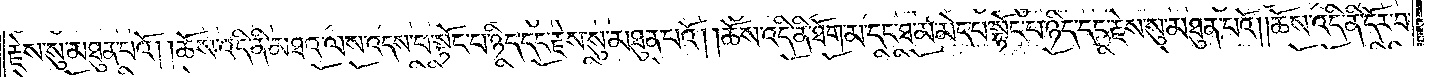རྗེས་སུ་མཐུན་པའོ། །ཆོས་འདི་ནི་མཐའ་ལས་འདས་པ་སྟོང་པ་ཉིད་དང་རྗེས་སུ་མཐུན་པའོ། །ཆོས་འདི་ནི་ཐོག་མ་དང་ཐ་མ་མེད་པ་སྟོང་པ་ཉིད་དང་རྗེས་སུ་མཐུན་པའོ། །ཆོས་འདི་ནི་དོར་བ་
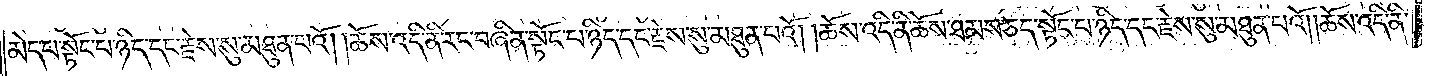མེད་པ་སྟོང་པ་ཉིད་དང་རྗེས་སུ་མཐུན་པའོ། །ཆོས་འདི་ནི་རང་བཞིན་སྟོང་པ་ཉིད་དང་རྗེས་སུ་མཐུན་པའོ། །ཆོས་འདི་ནི་ཆོས་ཐམས་ཅད་སྟོང་པ་ཉིད་དང་རྗེས་སུ་མཐུན་པའོ། །ཆོས་འདི་ནི་
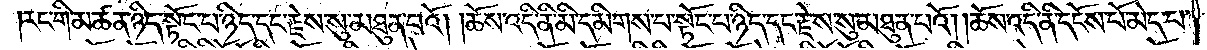རང་གི་མཚན་ཉིད་སྟོང་པ་ཉིད་དང་རྗེས་སུ་མཐུན་པའོ། །ཆོས་འདི་ནི་མི་དམིགས་པ་སྟོང་པ་ཉིད་དང་རྗེས་སུ་མཐུན་པའོ། །ཆོས་འདི་ནི་དངོས་པོ་མེད་པ་
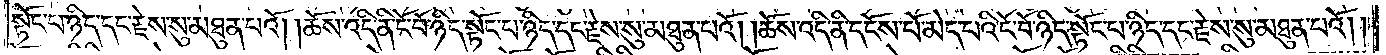སྟོང་པ་ཉིད་དང་རྗེས་སུ་མཐུན་པའོ། །ཆོས་འདི་ནི་ངོ་བོ་ཉིད་སྟོང་པ་ཉིད་དང་རྗེས་སུ་མཐུན་པའོ། །ཆོས་འདི་ནི་དངོས་པོ་མེད་པའི་ངོ་བོ་ཉིད་སྟོང་པ་ཉིད་དང་རྗེས་སུ་མཐུན་པའོ། །
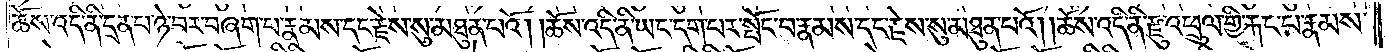ཆོས་འདི་ནི་དྲན་པ་ཉེ་བར་བཞག་པ་རྣམས་དང་རྗེས་སུ་མཐུན་པའོ། །ཆོས་འདི་ནི་ཡང་དག་པར་སྤོང་བ་རྣམས་དང་རྗེས་སུ་མཐུན་པའོ། །ཆོས་འདི་ནི་རྫུ་འཕྲུལ་གྱིས་རྐང་པ་རྣམས་
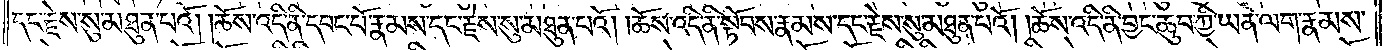དང་རྗེས་སུ་མཐུན་པའོ། །ཆོས་འདི་ནི་དབང་པོ་རྣམས་དང་རྗེས་སུ་མཐུན་པའོ། །ཆོས་འདི་ནི་སྟོབས་རྣམས་དང་རྗེས་སུ་མཐུན་པའོ། །ཆོས་འདི་ནི་བྱང་ཆུབ་ཀྱི་ཡན་ལག་རྣམས་
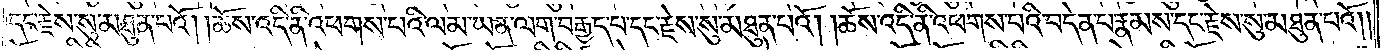དང་རྗེས་སུ་མཐུན་པའོ། །ཆོས་འདི་ནི་འཕགས་པའི་ལམ་ཡན་ལག་བརྒྱད་པ་དང་རྗེས་སུ་མཐུན་པའོ། །ཆོས་འདི་ནི་འཕགས་པའི་བདེན་པ་རྣམས་དང་རྗེས་སུ་མཐུན་པའོ༎
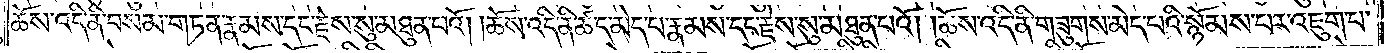ཆོས་འདི་ནི་བསམ་གཏན་རྣམས་དང་རྗེས་སུ་མཐུན་པའོ། །ཆོས་འདི་ནི་ཚད་མེད་པ་རྣམས་དང་རྗེས་སུ་མཐུན་པའོ། །ཆོས་འདི་ནི་གཟུགས་མེད་པའི་སྙོམས་པར་འཇུག་པ་
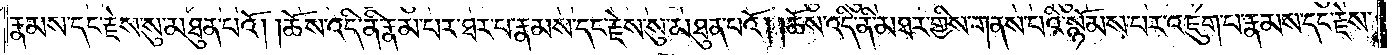རྣམས་དང་རྗེས་སུ་མཐུན་པའོ། །ཆོས་འདི་ནི་རྣམ་པར་ཐར་པ་རྣམས་དང་རྗེས་སུ་མཐུན་པའོ། །ཆོས་འདི་ནི་མཐར་གྱིས་གནས་པའི་སྙོམས་པར་འཇུག་པ་རྣམས་དང་རྗེས་
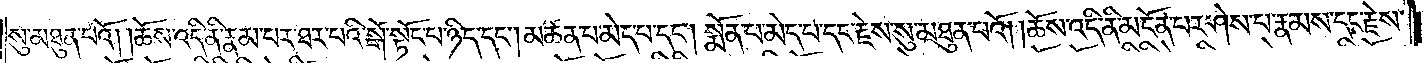སུ་མཐུན་པའོ། །ཆོས་འདི་ནི་རྣམ་པར་ཐར་པའི་སྒོ་སྟོང་པ་ཉིད་དང༌། མཚན་མ་མེད་པ་དང་སྨོན་པ་མེད་པ་དང་རྗེས་སུ་མཐུན་པའོ། །ཆོས་འདི་ནི་མངོན་པར་ཤེས་པ་རྣམས་དང་རྗེས་
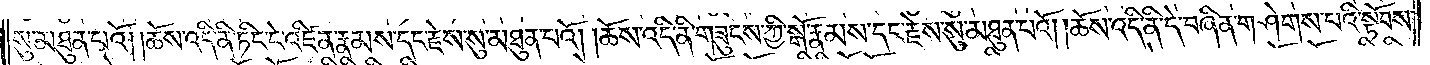སུ་མཐུན་པའོ། །ཆོས་འདི་ནི་ཏིང་ངེ་འཛིན་རྣམས་དང་རྗེས་སུ་མཐུན་པའོ། །ཆོས་འདི་ནི་གཟུངས་ཀྱི་སྒོ་རྣམས་དང་རྗེས་སུ་མཐུན་པའོ། །ཆོས་འདི་ནི་དེ་བཞིན་གཤེགས་པའི་སྟོབས་
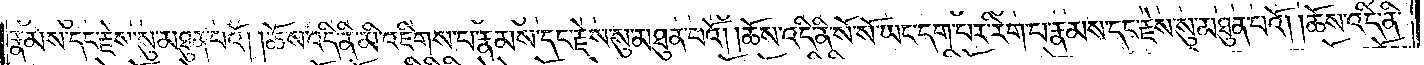རྣམས་དང་རྗེས་སུ་མཐུན་པའོ། །ཆོས་འདི་ནི་མི་འཇིགས་པ་རྣམས་དང་རྗེས་སུ་མཐུན་པའོ། །ཆོས་འདི་ནི་སོ་སོ་ཡང་དག་པར་རིག་པ་རྣམས་དང་རྗེས་སུ་མཐུན་པའོ། །ཆོས་འདི་ནི་
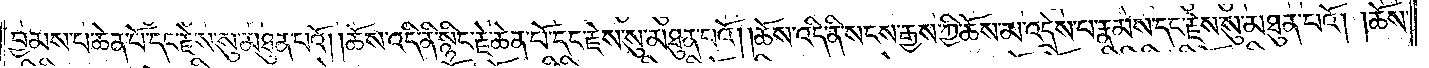བྱམས་པ་ཆེན་པོ་དང་རྗེས་སུ་མཐུན་པའོ། །ཆོས་འདི་ནི་སྙིང་རྗེ་ཆེན་པོ་དང་རྗེས་སུ་མཐུན་པའོ། །ཆོས་འདི་ནི་སངས་རྒྱས་ཀྱི་ཆོས་མ་འདྲེས་པ་རྣམས་དང་རྗེས་སུ་མཐུན་པའོ། །ཆོས་
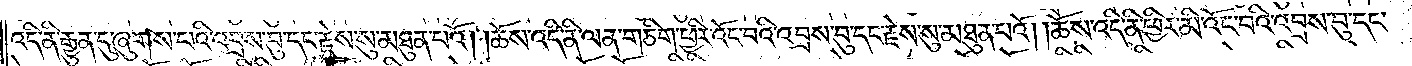འདི་ནི་རྒྱུན་དུ་ཞུགས་པའི་འབྲས་བུ་དང་རྗེས་སུ་མཐུན་པའོ། །ཆོས་འདི་ནི་ལན་གཅིག་ཕྱིར་འོང་བའི་འབྲས་བུ་དང་རྗེས་སུ་མཐུན་པའོ། །ཆོས་འདི་ནི་ཕྱིར་མི་འོང་བའི་འབྲས་བུ་དང་
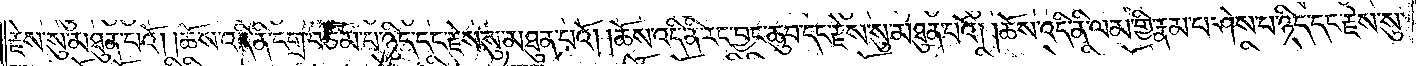རྗེས་སུ་མཐུན་པའོ། །ཆོས་འདི་ནི་དགྲ་བཅོམ་པ་ཉིད་དང་རྗེས་སུ་མཐུན་པའོ། །ཆོས་འདི་ནི་རང་བྱང་ཆུབ་དང་རྗེས་སུ་མཐུན་པའོ། །ཆོས་འདི་ནི་ལམ་གྱི་རྣམ་པ་ཤེས་པ་ཉིད་དང་རྗེས་སུ་
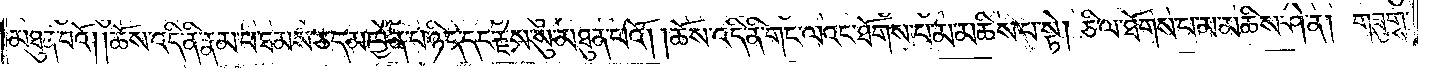མཐུན་པའོ། །ཆོས་འདི་ནི་རྣམ་པ་ཐམས་ཅད་མཁྱེན་པ་ཉིད་དང་རྗེས་སུ་མཐུན་པའོ། །ཆོས་འདི་ནི་གང་ལའང་ཐོགས་པ་མ་མཆིས་པ་སྟེ། ཅི་ལ་ཐོགས་པ་མ་མཆིས་ཤེ་ན། གཟུགས་
